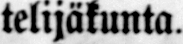telijäkunta.
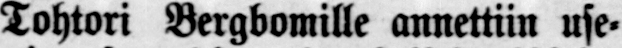Tohtori Bergbomille annettiin use-
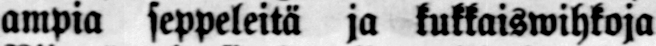ampia seppeleitä ja kukkaiswihkoja.
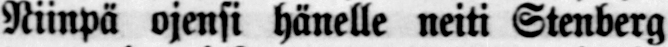Niinpä ojensi hänelle neiti Stenberg
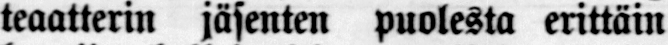teaatterin jäsenten puolesta erittäin
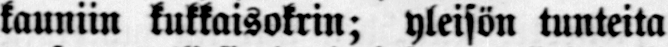kauniin kukkaisokrin; yleisön tunteita
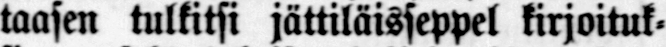taasen tulkitsi jättiläisseppel kirjoituk-
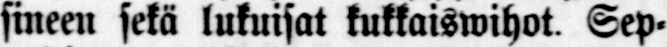sineen sekä lukuisat kukkaiswihot. Sep-
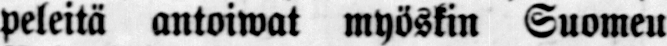peleitä antoiwat myöskin Suomeu
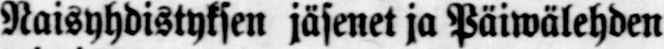Naisyhdistyksen jäsenet ja Päiwälehden
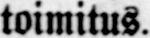toimitus.
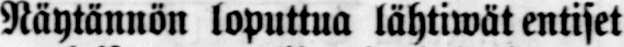Näytännön loputtua lähtiwät entiset
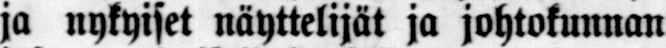ja nykyiset näyttelijät ja johtokunnan
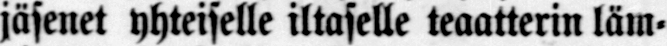jäsenet yhteiselle iltaselle teaatterin läm-
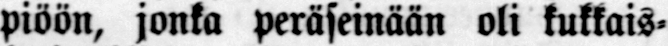piöön, jonka peräseinään oli kukkais-
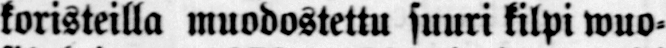koristeilla muodostettu suuri kilpi wuo-
